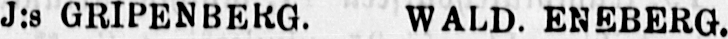J:s GRIPENBERG. WALD. ENEBERG.
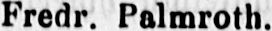Fredr. Patmroth.
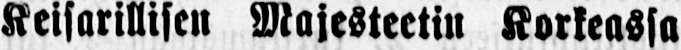Keisarillisen Majesteetin Korkeassa
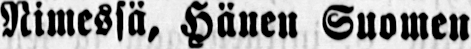Nimessä, Hänen Suomen
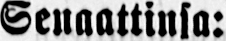Senaattinsa:
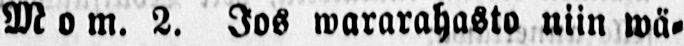Mo m. 2. Jos wararahasto niin wä-
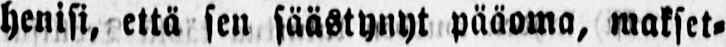henisi, että sen säästynyt pääoma, makset-
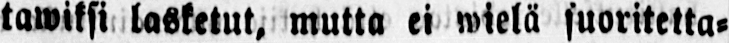tawiksi lasketut, mutta ei wielä suoritetta-
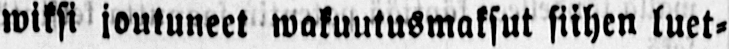wiksi joutuneet wakuutusmaksut siihen luet-
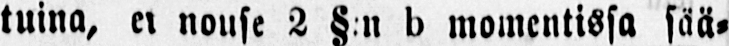tuina, ei nouse 2 §:n b momentissa sää-
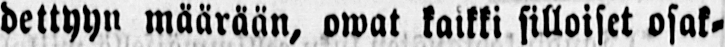dettyyn määrään, owat kaikki silloiset osak-
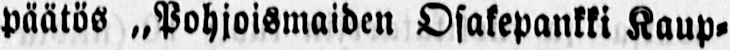päätös „Pohjoismaiden Osakepankki Kaup-
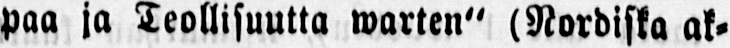paa ja Teollisuutta warten" (Nordiska ak-
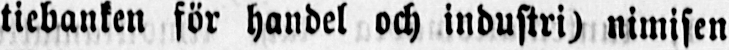tiebanken för handel och industri) nimisen
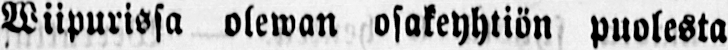Wiipurissa olewan osakeyhtiön puolesta
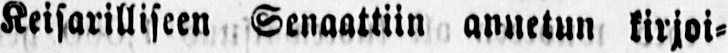Keisarilliseen Senaattiin annetun kirjoi-
